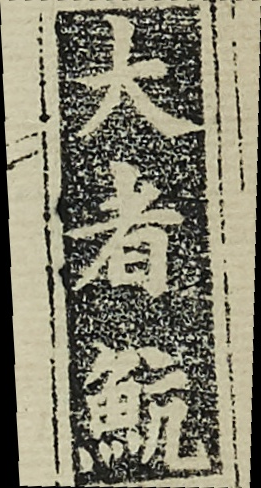大者魧
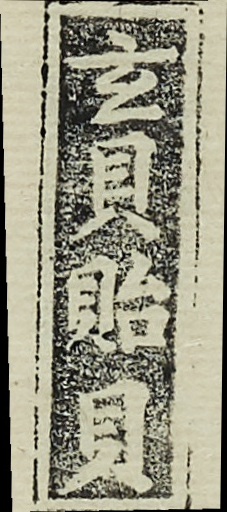玄貝貽貝
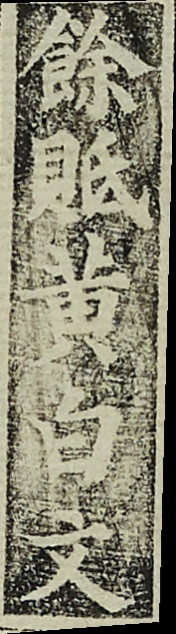餘貾黃白文
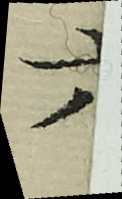六
